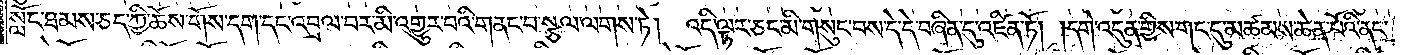སློང་ཐམས་ཅད་ཀྱི་ཆོས་གོས་དག་དང་འབྲལ་བར་མི་འགྱུར་བའི་གནང་བ་སྩལ་ལགས་ཏེ། འདི་ལྟར་ཅང་མི་གསུང་བས་དེ་དེ་བཞིན་དུ་འཛིན་ཏོ། །དགེ་འདུན་གྱིས་གང་དུ་མཚམས་ཆེན་པོའི་ནང་
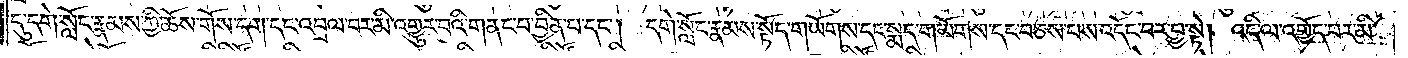དུ་དགེ་སློང་རྣམས་ཀྱི་ཆོས་གོས་དག་དང་འབྲལ་བར་མི་འགྱུར་བའི་གནང་བ་བྱིན་པ་དང༌། དགེ་སློང་རྣམས་སྟོད་གཡོགས་དང་སྨད་གཡོགས་དང་བཅས་པས་འདོང་བར་བྱ་སྟེ། འདི་ལ་འགྱོད་པར་མི་
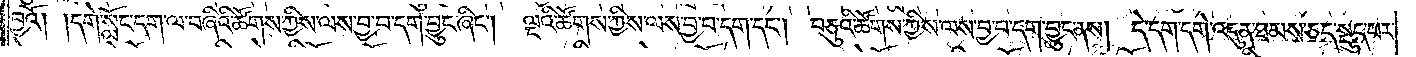བྱའོ། །དགེ་སློང་དག་ལ་བཞིའི་ཚོགས་ཀྱིས་ལས་བྱ་བ་དག་བྱུང་ཞིང༌། ལྔའི་ཚོགས་ཀྱིས་ལས་བྱ་བ་དག་དང༌། བཅུའི་ཚོགས་ཀྱིས་ལས་བྱ་བ་དག་བྱུང་ནས། དེ་དག་དགེ་འདུན་ཐམས་ཅད་སྡུད་པར་
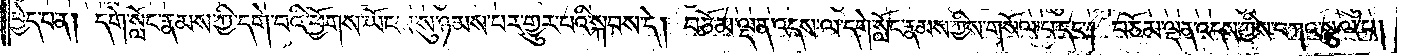བྱེད་པ་ན། དགེ་སློང་རྣམས་ཀྱི་དགེ་བའི་ཕྱོགས་ཡོངས་སུ་ཉམས་པར་གྱུར་པའི་སྐབས་དེ། བཅོམ་ལྡན་འདས་ལ་དགེ་སློང་རྣམས་ཀྱིས་གསོལ་པ་དང༌། བཅོམ་ལྡན་འདས་ཀྱིས་བཀའ་སྩལ་པ།
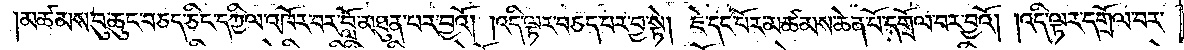།མཚམས་བུ་ཆུང་བཅད་ཅིང་དཀྱིལ་འཁོར་བར་བློ་མཐུན་པར་བྱའོ། །འདི་ལྟར་བཅད་པར་བྱ་སྟེ། ཇེ་དང་པོར་མཚམས་ཆེན་པོ་དགྲོལ་བར་བྱའོ། །འདི་ལྟར་དགྲོལ་བར་
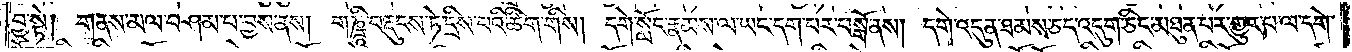བྱ་སྟེ། གནས་མལ་བཤམ་པ་བྱས་ནས། གཎྜཱི་བརྡུངས་ཏེ་དྲིས་པའི་ཚིག་གིས། དགེ་སློང་རྣམས་ལ་ཡང་དག་པར་བསྒོ་ནས། དགེ་འདུན་ཐམས་ཅད་འདུག་ཅིང་མཐུན་པར་གྱུར་པ་ལ་དགེ་
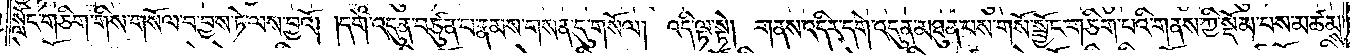སློང་གཅིག་གིས་གསོལ་བ་བྱས་ཏེ་ལས་བྱའོ། །དགེ་འདུན་བཙུན་པ་རྣམས་གསན་དུ་གསོལ། འདི་ལྟ་སྟེ། གནས་འདིར་དགེ་འདུན་མཐུན་པས་གསོ་སྦྱོང་གཅིག་པའི་གནས་ཀྱི་སྡོམ་པས་མཚམས་
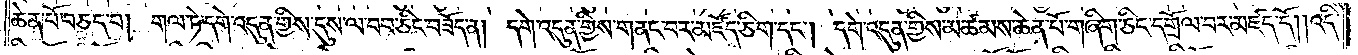ཆེན་པོ་བཅད་པ། གལ་ཏེ་དགེ་འདུན་གྱིས་དུས་ལ་བབ་ཅིང་བཟོད་ན། དགེ་འདུན་གྱིས་གནང་བར་མཛོད་ཅིག་དང༌། དགེ་འདུན་གྱིས་མཚམས་ཆེན་པོ་གཞིག་ཅིང་དགྲོལ་བར་མཛད་དོ༎འདི་
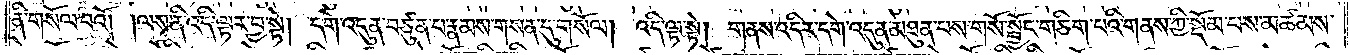ནི་གསོལ་བའོ། །ལས་ནི་འདི་ལྟར་བྱ་སྟེ། དགེ་འདུན་བཙུན་པ་རྣམས་གསན་དུ་གསོལ། འདི་ལྟ་སྟེ། གནས་འདིར་དགེ་འདུན་མཐུན་པས་གསོ་སྦྱོང་གཅིག་པའི་གནས་ཀྱི་སྡོམ་པས་མཚམས་
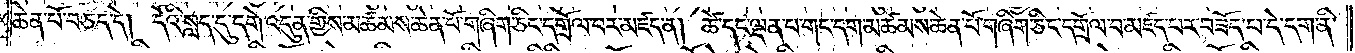ཆེན་པོ་བཅད་དེ། དེའི་སླད་དུ་དགེ་འདུན་གྱིས་མཚམས་ཆེན་པོ་གཞིག་ཅིང་དགྲོལ་བར་མཛད་ན། ཚེ་དང་ལྡན་པ་གང་དག་མཚམས་ཆེན་པོ་གཞིག་ཅིང་དགྲོལ་བ་མཛད་པར་བཟོད་པ་དེ་དག་ནི་
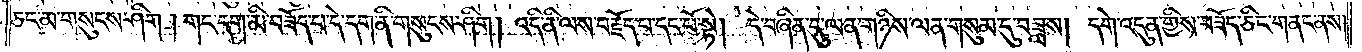ཅང་མ་གསུངས་ཤིག ། གང་དག་མི་བཟོད་པ་དེ་དག་ནི་གསུངས་ཤིག། འདི་ནི་ལས་བརྗོད་པ་དང་པོ་སྟེ། དེ་བཞིན་དུ་ལན་གཉིས་ལན་གསུམ་དུ་བཟླས། དགེ་འདུན་གྱིས་བཟོད་ཅིང་གནང་ནས།
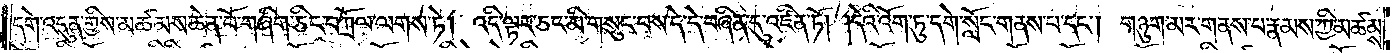དགེ་འདུན་གྱིས་མཚམས་ཆེན་པོ་གཞིག་ཅིང་བཀྲོལ་ལགས་ཏེ། འདི་ལྟར་ཅང་མི་གསུང་བས་དེ་དེ་བཞིན་དུ་འཛིན་ཏོ། །དེའི་འོག་ཏུ་དགེ་སློང་གནས་པ་དང༌། གཉུག་མར་གནས་པ་རྣམས་ཀྱི་མཚམས་
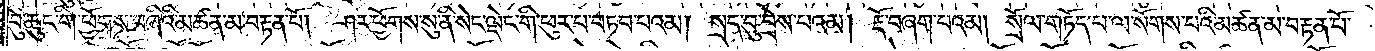བུ་ཆུང་གི་ཕྱོགས་བཞིའི་མཚན་མ་བརྟན་པོ། ཤར་ཕྱོགས་སུ་ནི་སེང་ལྡེང་གི་ཕུར་པ་བཏབ་པའམ། སྲད་བུ་བྲེས་པའམ། རྡོ་བཞག་པའམ། སྲོལ་གཏོད་པ་ལ་སོགས་པའི་མཚན་མ་བརྟན་པོ་
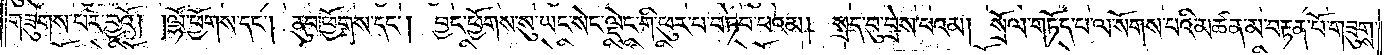གཟུགས་པར་བྱའོ། །ལྷོ་ཕྱོགས་དང༌། ནུབ་ཕྱོགས་དང༌། བྱང་ཕྱོགས་སུ་ཡང་སེང་ལྡེང་གི་ཕུར་པ་བཏབ་པའམ། སྲད་བུ་བྲེས་པའམ། སྲོལ་གཏོད་པ་ལ་སོགས་པའི་མཚན་མ་བརྟན་པོ་གཟུགས་
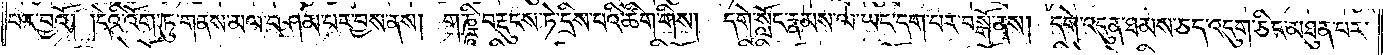པར་བྱའོ། །དེའི་འོག་ཏུ་གནས་མལ་བཤམ་པར་བྱས་ནས། གཎྜཱི་བརྡུངས་ཏེ་དྲིས་པའི་ཚིག་གིས། དགེ་སློང་རྣམས་ལ་ཡང་དག་པར་བསྒོ་ནས། དགེ་འདུན་ཐམས་ཅད་འདུག་ཅིང་མཐུན་པར་
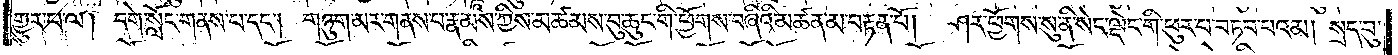གྱུར་པ་ལ། དགེ་སློང་གནས་པ་དང༌། གཉུག་མར་གནས་པ་རྣམས་ཀྱིས་མཚམས་བུ་ཆུང་གི་ཕྱོགས་བཞིའི་མཚན་མ་བརྟན་པོ། ཤར་ཕྱོགས་སུ་ནི་སེང་ལྡེང་གི་ཕུར་བ་བཏབ་པའམ། སྲད་བུ་
